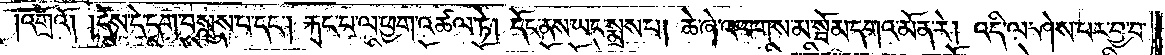འགྲོའོ། །དེས་དེ་དག་བསླུས་པ་དང༌། རྐང་པ་ལ་ཕྱག་འཚལ་ཏེ། དོང་ནས་ཡང་སྨྲས་པ། ཆེ་ཞེ་འཕགས་མ་སྦོམ་དགའ་མོ་ན་རེ། འདི་ལ་ཤེས་པར་བྱ་བ་
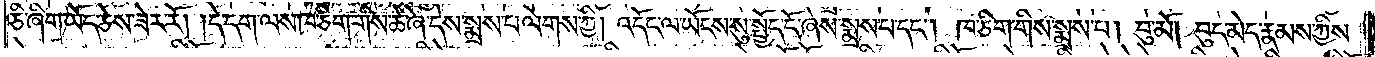ཅི་ཞིག་ཡོད་ཅེས་ཟེར་རོ། །དེ་དག་ལས་ཁ་ཅིག་གིས་ཆེ་ཞེ་དེས་སྨྲས་པ་ལེགས་ཀྱི། འདོང་ལ་ཡོངས་སུ་སྤྱོད་དོ་ཞེས་སྨྲས་པ་དང༌། ཁ་ཅིག་གིས་སྨྲས་པ། བུ་མོ། བུད་མེད་རྣམས་ཀྱིས་
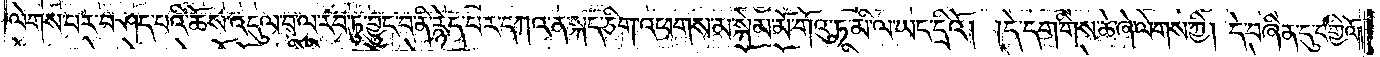ལེགས་པར་བཤད་པའི་ཆོས་འདུལ་བ་ལ་རབ་ཏུ་བྱུང་བ་ནི་རྙེད་པར་དཀའ་ན་སྐད་ཅིག་འཕགས་མ་སྐེམ་མོ་གོའུ་ཏ་མི་ལ་ཡང་དྲིའོ། །དེ་དག་གིས་ཆེ་ཞེ་ལེགས་ཀྱི། དེ་བཞིན་དུ་བགྱིའོ༎
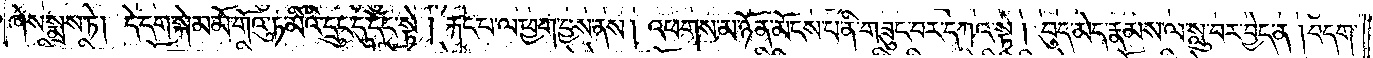ཞེས་སྨྲས་ཏེ། དེ་དག་སྐེམ་མོ་གོའུ་ཏ་མིའི་དྲུང་དུ་དོང་སྟེ། རྐང་པ་ལ་ཕྱག་བྱས་ནས། འཕགས་མ་ཉོན་མོངས་པ་ནི་གཟུང་བར་དཀའ་སྟེ། བུད་མེད་རྣམས་ལ་སླུ་བར་བྱེད་ན་།བདག་
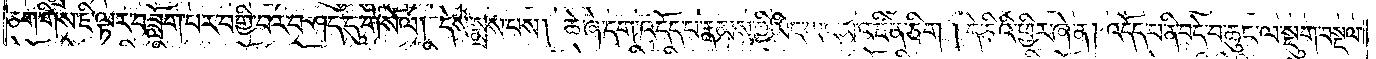ཅག་གིས་ཇི་ལྟར་བཟློག་པར་བགྱི་བར་བཤད་དུ་གསོལ། དེས་སྨྲས་པས། ཆེ་ཞེ་དག་འདོད་པ་རྣམས་ཀྱི་མིང་ཡང་མ་འཛིན་ཅིག །དེ་ཅིའི་ཕྱིར་ཞེ་ན། འདོད་པ་ནི་བདེ་བ་ཆུང་ལ་སྡུག་བསྔལ་
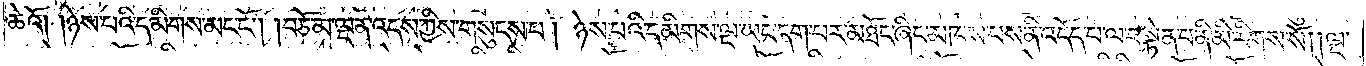ཆེའོ། །ཉེས་པའི་དམིགས་མང་ངོ༌། །བཅོམ་ལྡན་འདས་ཀྱིས་གསུངས་པ། ཉེས་པའི་དམིགས་ལྔ་ཡང་དག་པར་མཐོང་ཞིང་མཁས་པས་ནི་འདོད་པ་ལ་བསྟེན་པ་ནི་མི་རིགས་སོ། །ལྔ་
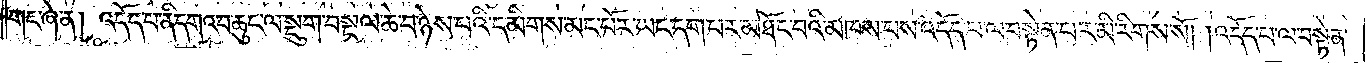གང་ཞེ་ན། འདོད་པ་ནི་དགའ་བ་ཆུང་ལ་སྡུག་བསྔལ་ཆེ་བ་ཉེས་པའི་དམིགས་མང་པོར་ཡང་དག་པར་མཐོང་བའི་མཁས་པས་འདོད་པ་ལ་བསྟེན་པར་མི་རིགས་སོ། །འདོད་པ་ལ་བསྟེན་
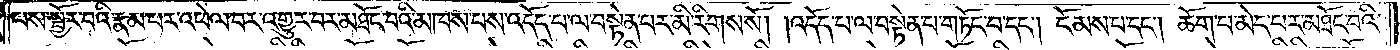ནས་སྦྱོར་བའི་རྣམ་པར་འཕེལ་བར་འགྱུར་བར་མཐོང་བའི་མཁས་པས་འདོད་པ་ལ་བསྟེན་པར་མི་རིགས་སོ། །འདོད་པ་ལ་བསྟེན་པ་གཏོང་བ་དང༌། ངོམས་པ་དང༌། ཆོག་པ་མེད་པར་མཐོང་བའི་
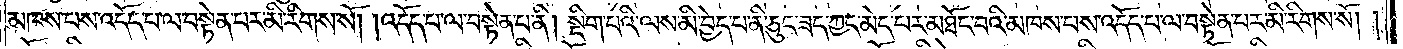མཁས་པས་འདོད་པ་ལ་བསྟེན་པར་མི་རིགས་སོ། །འདོད་པ་ལ་བསྟེན་པ་ནི། སྡིག་པའི་ལས་མི་བྱེད་པ་ནི་ཅུང་ཟད་ཀྱང་མེད་པར་མཐོང་བའི་མཁས་པས་འདོད་པ་ལ་བསྟེན་པར་མི་རིགས་སོ། །
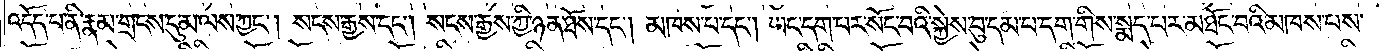འདོད་པ་ནི་རྣམ་གྲངས་དུ་མ་ལས་ཀྱང༌། སངས་རྒྱས་དང༌། སངས་རྒྱས་ཀྱི་ཉན་ཐོས་དང༌། མཁས་པ་དང༌། ཡང་དག་པར་སོང་བའི་སྐྱེས་བུ་དམ་པ་དག་གིས་སྨད་པར་མཐོང་བའི་མཁས་པས་
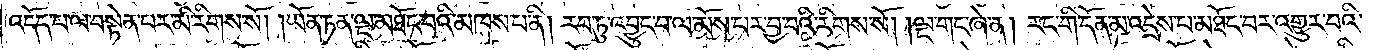འདོད་པ་ལ་བསྟེན་པར་མི་རིགས་སོ། །ཡོན་ཏན་ལྔ་མཐོང་བའི་མཁས་པ་ནི། རབ་ཏུ་འབྱུང་བ་ལ་མོས་པར་བྱ་བའི་རིགས་སོ། །ལྔ་གང་ཞེ་ན། རང་གི་དོན་མ་འདྲེས་པ་མཐོང་བར་འགྱུར་བའི་
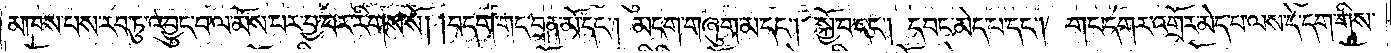མཁས་པས་རབ་ཏུ་འབྱུང་བ་ལ་མོས་པར་བྱ་བར་རིགས་སོ། །བདག་གང་བྲན་མོ་དང༌། མངག་གཞུག་མ་དང༌། སྐྱོ་བ་དང༌། དབང་མེད་པ་དང༌། གང་དགར་འགྲོར་མེད་པ་ལས་དེ་དག་གིས་
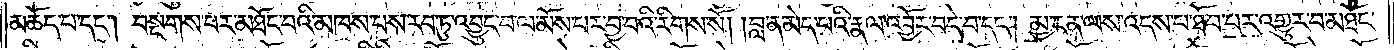མཆོད་པ་དང༌། བསྔགས་པར་མཐོང་བའི་མཁས་པས་རབ་ཏུ་འབྱུང་བ་ལ་མོས་པར་བྱ་བའི་རིགས་སོ། །བླ་ན་མེད་པའི་རྣལ་འབྱོར་བདེ་བ་དང༌། མྱ་ངན་ལས་འདས་པ་ཐོབ་པར་འགྱུར་བ་མཐོང་
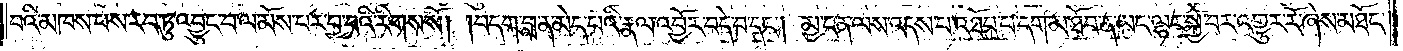བའི་མཁས་པས་རབ་ཏུ་འབྱུང་བ་ལ་མོས་པར་བྱ་བའི་རིགས་སོ། །བདག་བླ་ན་མེད་པའི་རྣལ་འབྱོར་བདེ་བ་དང༌། མྱ་ངན་ལས་འདས་པ་འཐོབ་པ་དག་མ་ཐོབ་ན་ཡང་ལྷར་སྐྱེ་བར་འགྱུར་རོ་ཞེས་མཐོང་
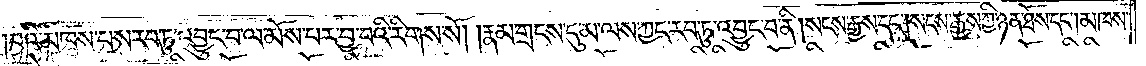བའི་མཁས་པས་རབ་ཏུ་འབྱུང་བ་ལ་མོས་པར་བྱ་བའི་རིགས་སོ། །རྣམ་གྲངས་དུ་མ་ལས་ཀྱང་རབ་ཏུ་འབྱུང་བ་ནི། སངས་རྒྱས་དང༌། སངས་རྒྱས་ཀྱི་ཉན་ཐོས་དང༌། མཁས་
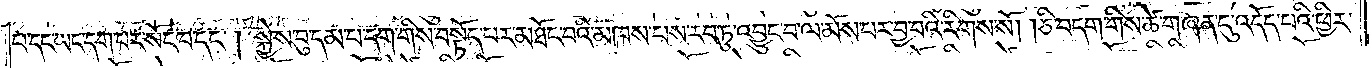པ་དང་ཡང་དག་པར་སོང་བ་དང༌། སྐྱེས་བུ་དམ་པ་དག་གིས་བསྟོད་པར་མཐོང་བའི་མཁས་པས་རབ་ཏུ་འབྱུང་བ་ལ་མོས་པར་བྱ་བའི་རིགས་སོ། །ཅི་བདག་གིས་ཚེ་གཞན་དུ་འདོད་པའི་ཕྱིར་
